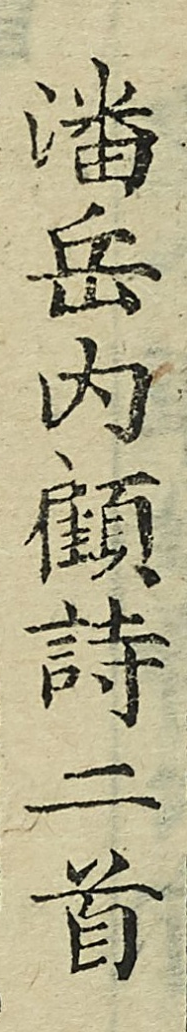潘岳內顧詩二首
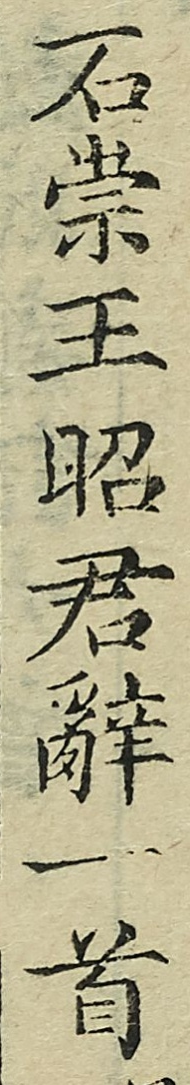石崇王昭君辭一首
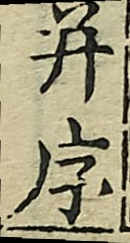並序
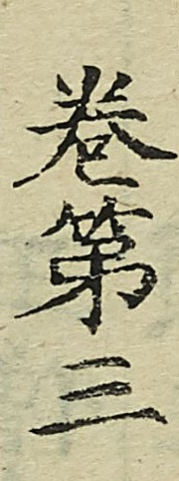卷第三
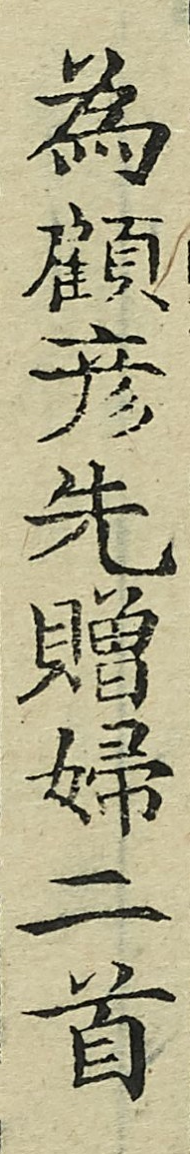為顧彥先贈婦二首
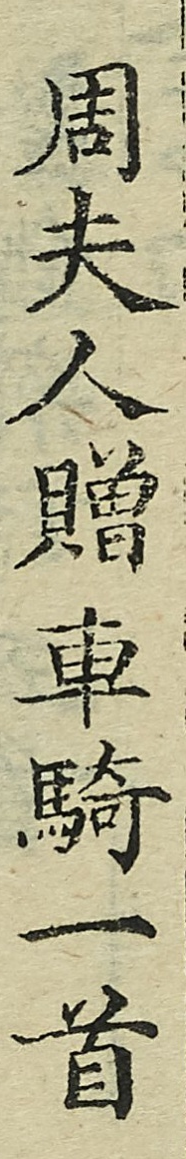周夫人贈車騎一首
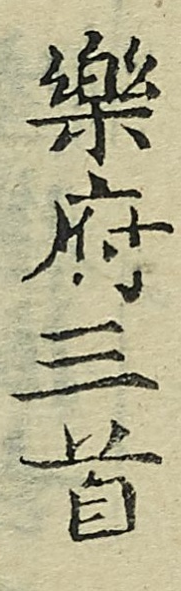樂府三首
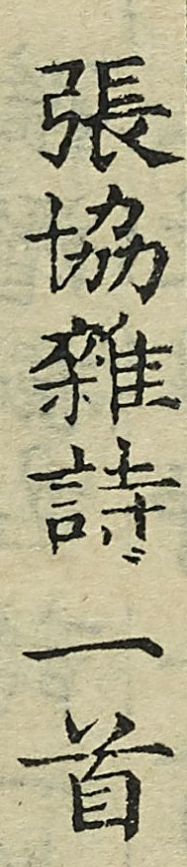張協雜詩一首
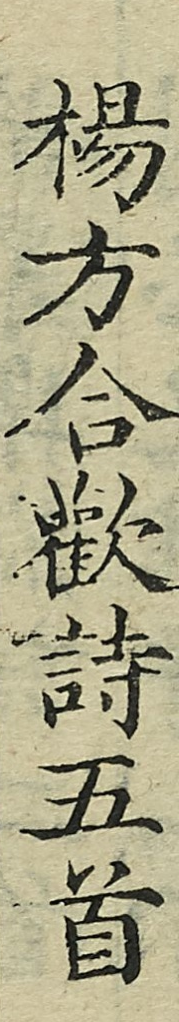楊方合歡詩五首
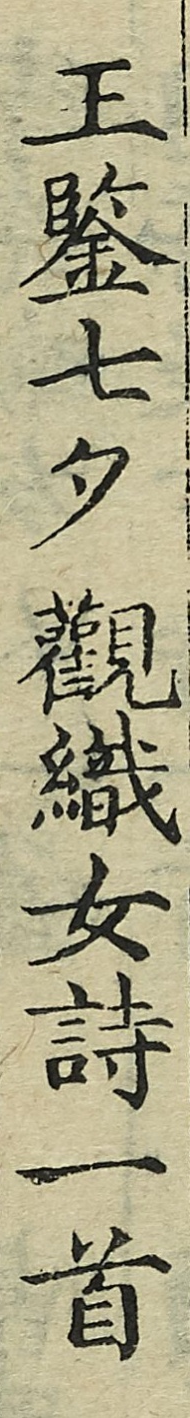王鑒七夕觀織女一首
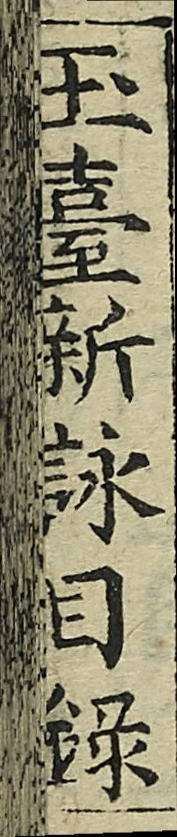玉臺新詠目錄
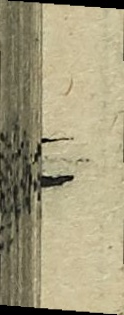二
